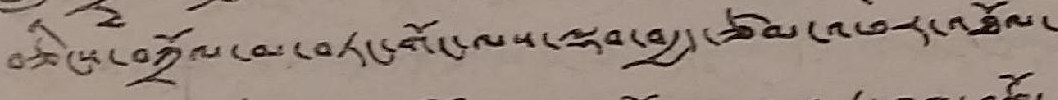བཅིངས་བཀྲོལ་མ་བཏང་གོང་ལས་ལྡབ་བརྒྱད་ཙམ་འཕར་འཐོལ་
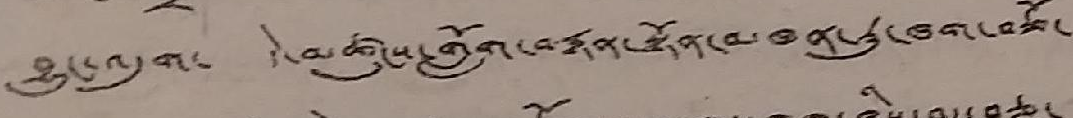བྱུང་འདུག་ དེ་མཚུངས་གློག་བརྙན་སྟོན་མཁན་རུ་ཁག་བཅོ་
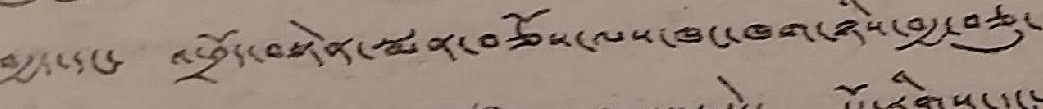བརྒྱད་དང་ འཕྲོད་བསྟེན་སྨན་བཅོས་ལས་ཁང་ཁག་ཉིས་བརྒྱ་བཅུ་
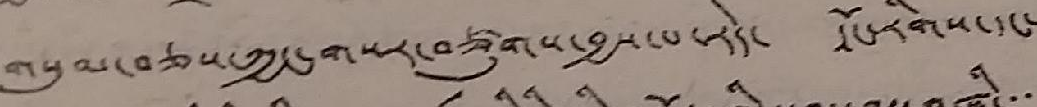གསུམ་བཅས་ཀྱང་གསར་བཙུགས་བྱས་པ་རེད་ དོང་རིགས་དང་
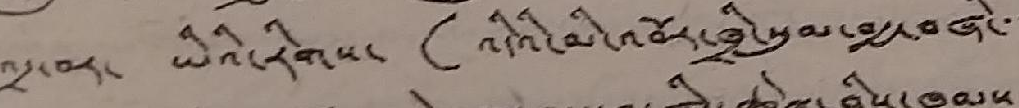འདྲ་བར་ ཡིའི་རིགས་ (འདིའི་མི་འབོར་ཁྲི་སུམ་བརྒྱ་བཞི་་་
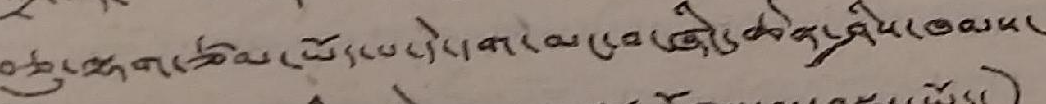བཅུ་ལྷག་ཙམ་ཡོད་པ་དེ་དག་མང་བ་ཞིང་ཆེན་ཤིས་ཁམས་
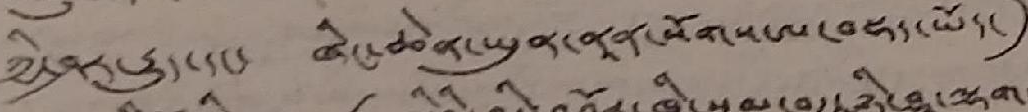ཀྱི་ཤར་རྒྱུད་དང་ ཞིང་ཆེན་ཡུན་ནན་སོགས་ལ་བསྡད་ཡོད་)
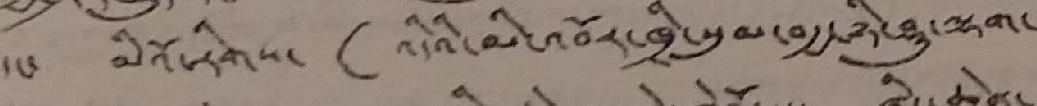དང་ མིའོ་རིགས་ (འདིའི་མི་འབོར་ཁྲི་སུམ་བརྒྱ་ཉི་ཤུ་ལྷག་
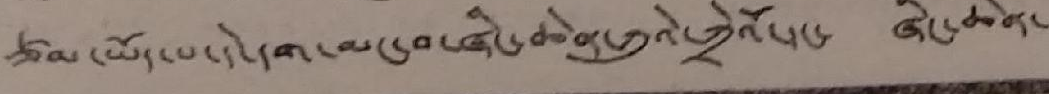ཙམ་ཡོད་པ་དེ་དག་མང་བ་ཞིང་ཆེན་ཀུའེ་ཀྲེའོ་དང་ ཞིང་ཆེན་
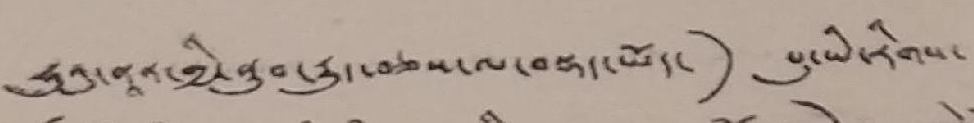ཧུའུ་ནཱན་གྱུ་ནུབ་རྒྱུད་བཅས་ལ་བསྡད་ཡོད་) པུ་ཡི་རིགས་
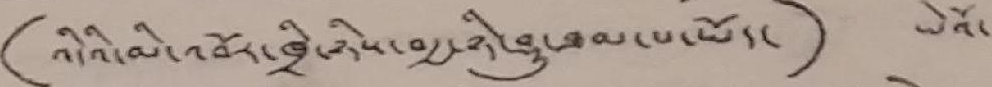( འདིའི་མི་འབོར་ཁྲི་ཉིས་བརྒྱ་ཉི་ཤུ་ཐམ་པ་ཡོད་ ) ཡེའོ་
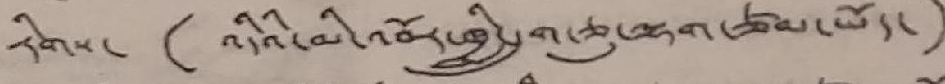རིགས་ ( འདིའི་མི་འབོར་ཁྲི་དྲུག་ཅུ་ལྷག་ཙམ་ཡོད་)
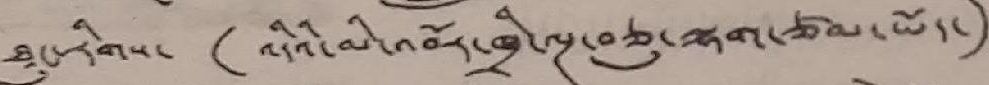ཐུང་རིགས་ (འདིའི་མི་འབོར་ཁྲི་ལྔ་བཅུ་ལྷག་ཙམ་ཡོད་)
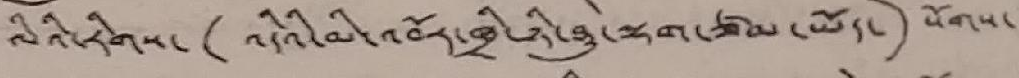ལིའི་རིགས་ ( འདིའི་མི་འབོར་ཁྲི་ཉི་ཤུ་ལྷག་ཙམ་ཡོད་)་སོགས་
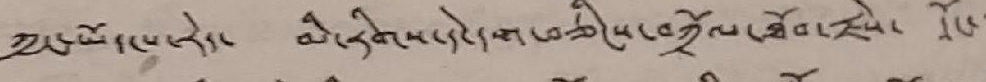ཀྱང་ཡོད་པ་རེད་ མི་རིགས་དེ་དག་བཅིངས་བཀྲོལ་ཐོབ་རྗེས་ དོང་་་
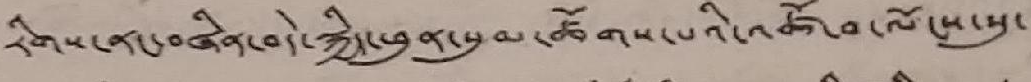རིགས་ནང་བཞིན་བདེ་སྐྱིད་ཕུན་སུམ་ཚོགས་པའི་འཚོ་བ་ལོངས་སུ་
